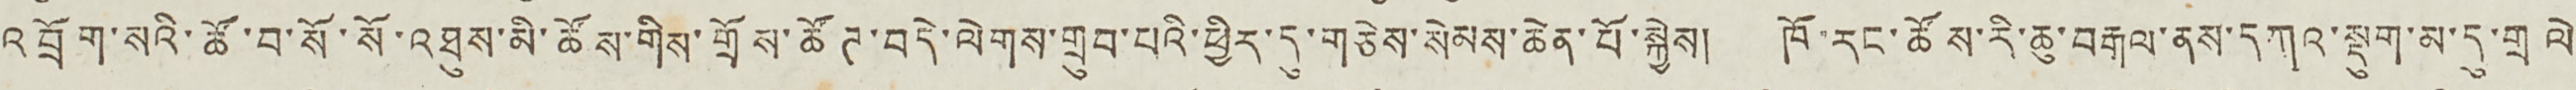འབྲོག་སའི་ཚོ་བ་སོ་སོ་འཐུས་མི་ཚོས་གིས་གྲོས་ཚོཊ་བདེ་ལེགས་གྲུབ་པའི་ཕྱིར་དུ་གཅེས་སེམས་ཆེན་པོ་སྐྱེས། ཁོ་རང་ཚོས་རི་ཆུ་བརྒལ་ནས་དཀའ་སྡུག་མ་དུ་གྲ ལེ
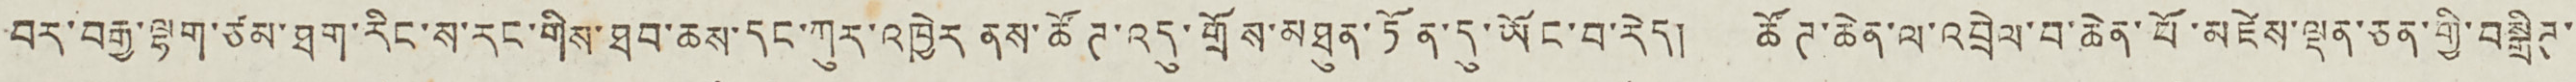བར་བརྒྱ་ལྷག་ཙམ་ཐག་རིང་ས་རང་གིས་ཐབ་ཆས་དང་ཀུར་འཁྱེར ནས་ཚོཊ་འདུ་གྲོས་མཐུན་ཏོན་དུ་ཡོང་བ་རེད། ཚོཊ་ཆེན་ལ་འབྲེལ་བ་ཆེན་པོ་མཛེས་ལྡན་ཅན་གྱི་བསྒྲིཊ་
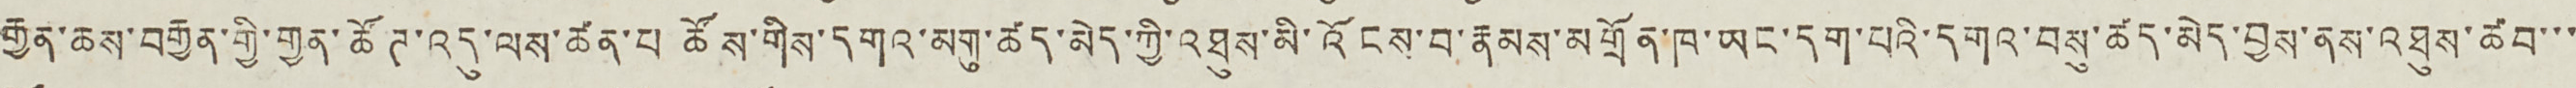རྒྱན་ཆས་བརྒྱན་གྱི་གྱན་ཚོཊ་འདུ་ལས་ཚན་པ ཚོས་གིས་དགའ་མགུ་ཚད་མེད་ཀྱི་འཐུས་མི་འོངས་བ་རྣམས་མགྲོན་ཁ་ཡང་དག་པའི་དགའ་བསུ་ཚད་མེད་བྱས་ནས་འཐུས་ཚབ་་་
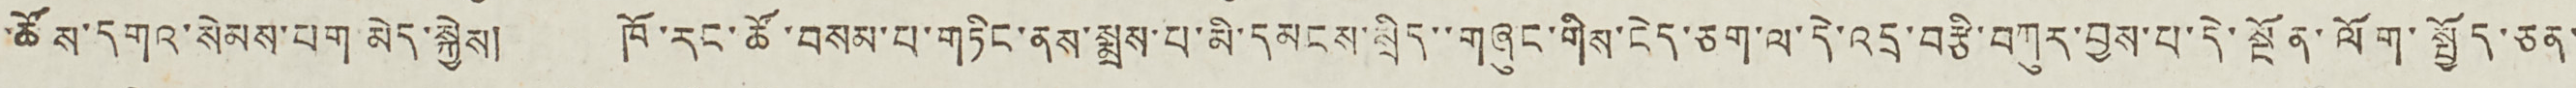ཚོས་དགའ་སེམས་པག མེད་སྐྱེས། ཁོ་རང་ཚོས་བསམ་པ་གཏིང་ནས་སྨྲས་པ་མི་དམངས་སྲིད་་གཞུང་གིས་ངེད་ཅག་ལ་དེ་འདྲ་བརྩི་བཀུར་བྱས་པ་དེ་སྔོན་ལོག་སྤྱོད་ཅན་
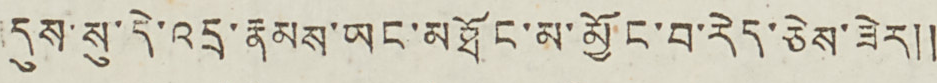དུས་སུ་དེ་འདྲ་རྣམས་ཡང་མཐོང་མ་མྱོང་བ་རེད་ཅེས་ཟེར༎
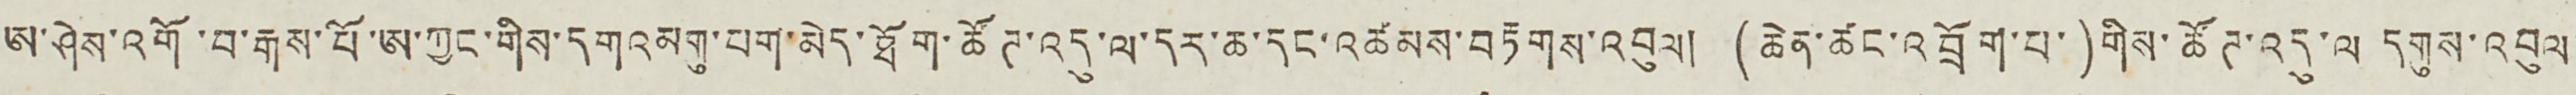ཨ་ཤེས་འགོ་བ་རྒས་པོ་ཨ་ཀྱང་གིས་དགའ མགུ་པག་མེད་ཐོག་ཚོཊ་འདུ་ལ་དར་ཆ་དང་འཚམས་བརྟགས་འབུལ། (ཆེན་ཚང་འབྲོག་པ་)གིས་ཚོཊ་འདུ་ལ དགུས་འབུལ་
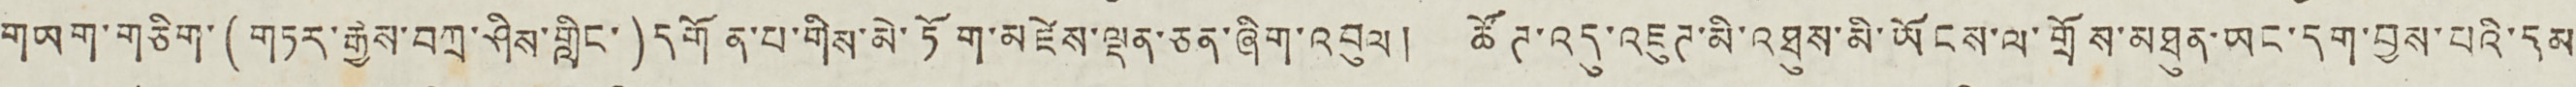གཡག་གཅིག་(གཏར་རྒྱས་བཀྲ་ཤིས་གླིང་)དགོན་པ་གིས་མེ་ཏོག་མཛེས་ལྡན་ཅན་ཞིག་འབུལ། ཚོཊ་འདུ་འཇུཊ་མི་འཐུས་མི་ཡོངས་ལ་གྲོས་མཐུན་ཡང་དག་བྱས་པའི་དམ
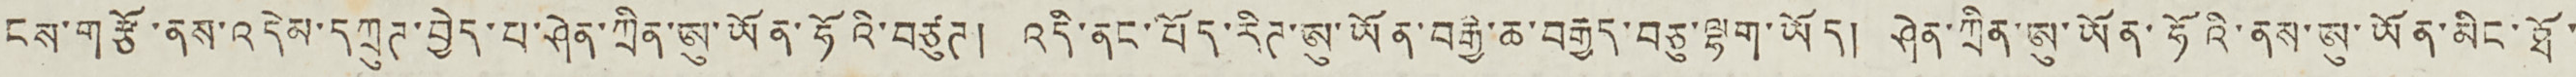ངས་གཙོ་ནས་འདེམ་དཀྲུཊ་བྱེད་པ་ཤེན་ཀྲིན་ཨུ་ཡོན་ཧོའི་བཙུཊ། འདི་ནང་བོད་རིཊ་ཨུ་ཡོན་བརྒྱ་ཆ་བརྒྱད་བཅུ་ལྷག་ཡོད། ཤེན་ཀྲིན་ཨུ་ཡོན་ཧོའི་ནས་ཨུ་ཡོན་མིང་ཐོ་
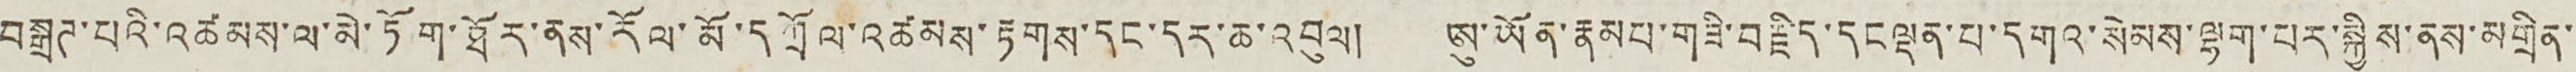བསྒྲཊ་པའི་འཚམས་ལ་མེ་ཏོག་ཐོར་ནས་རོལ་མོ་དཀྲོལ་འཚམས་རྟགས་དང་དར་ཆ་འབུལ། ཨུ་ཡོན་རྣམས་གཟི་བརྗིད་དངལྡན་པ་དགའ་སེམས་ལྷག་པར་སྐྱིས་ནས་མགྲིན་
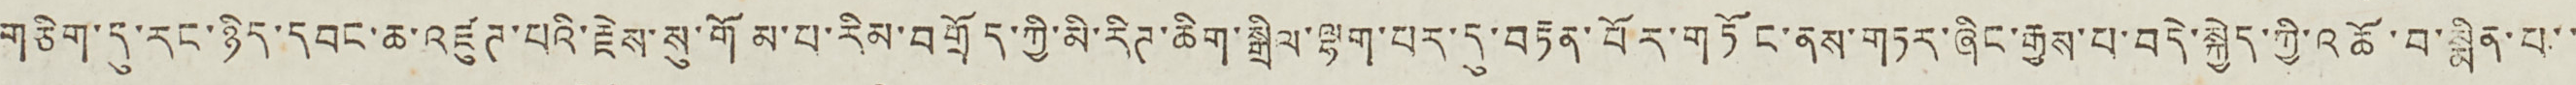གཅིག་དུ་རང་ཉིད་དབང་ཆ་འཛུཊ་པའི་རྗེས་སུ་གོམ་པ་རིམ་བགྲོད་ཀྱི་མི་རིཊ་ཆིག་སྒྲིལ་ལྷག་པར་དུ་བརྟན་པོར་གཏོང་ནས་གཏར་ཞིང་རྒྱས་པ་བདེ་སྐྱེད་ཀྱི་འཆོ་བ་སྨིན་པ་་
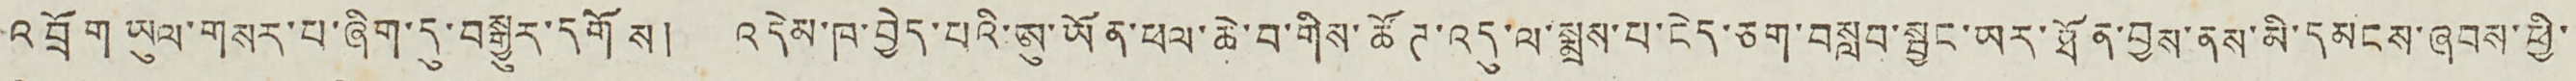འབྲོག ཡུལ་གསར་པ་ཞིག་དུ་བསྒྱུར་དགོས། འདེམ་ཁ་བྱེད་པའི་ཨུ་ཡོན་ཕལ་ཆེ་བ་གིས་ཚོཊ་འདུ་ལ་སྨྲས་པ་ངེད་ཅག་བསླབ་སྦྱང་ཡར་ཐོན་བྱས་ནས་མི་དམངས་ཞབས་ཕྱི་
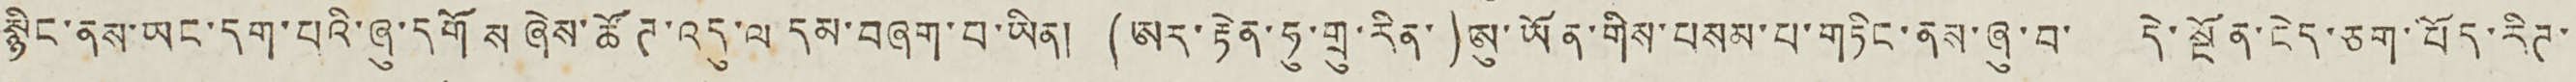སྙིང་ནས་ཡང་དག་པའི་ཞུ་དགོས་ཞེས་ཚོཊ་འདུ་ལ དམ་བཞག་པ་ཡིན། (ཨར་རྟེན་ཧུ་གྲུ་རིན་)ཨུ་ཡོན་གིས་བསམ་པ་གཏིང་ནས་ཞུ་བ་ དེ་སྔོན་ངེད་ཅག་བོད་རིཊ་
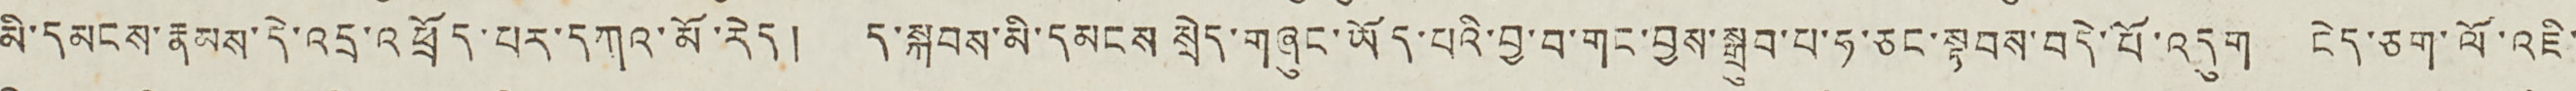མི་དམངས་རྣམས་དེ་འདྲ་འཕྲོད་པར་དཀའ་མོ་རེད། ད་སྐབས་མི་དམངས སྲིད་གཞུང་ཡོད་པའི་བྱ་བ་གང་བྱས་སྒྲུབ་པ་ཧ་ཅང་སྟབས་བདེ་པོ་འདུག ངེད་ཅག་ལོ་འཇི་
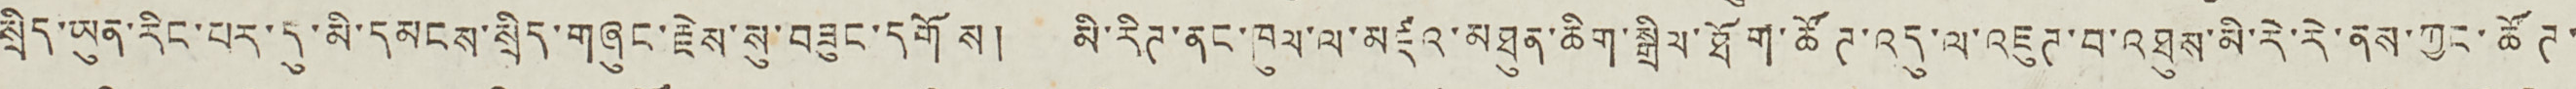སྲིད་ཡུན་རིང་པར་དུ་མི་དམངས་སྲིད་གཞུང་རྗེས་སུ་བཟུང་དགོས། མི་རིཊ་ནང་ཁུལ་ལ་མཛའ་མཐུན་ཆིག་སྒྲིལ་ཐོག་ཚོཊ་འདུ་ལ་འཇུཊ་བ་འཐུས་མི་རེ་རེ་ནས་ཀྱང་ཚོཊ་
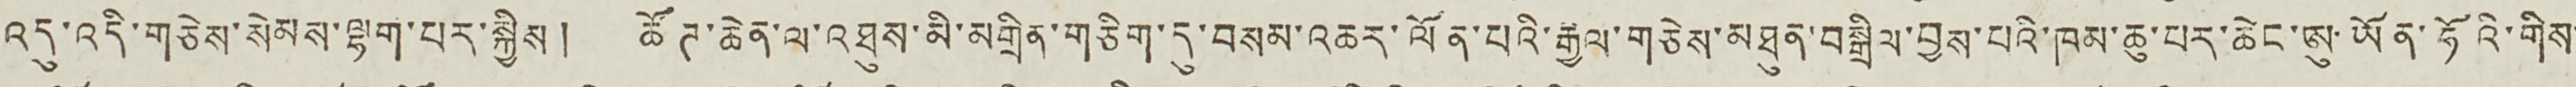འདུ་འདི་གཅེས་སེམས་ལྷག་པར་སྐྱིས། ཚོཊ་ཆེན་ལ་འཐུས་མི་མགྲིན་གཅིག་དུ་བསམ་འཆར་ལོན་པའི་རྒྱལ་གཅེས་མཐུན་བསྒྲིལ་བྱས་པའི་ཁམ་ཆུ་པར་ཆེང་ཨུ་ཡོན་ཧོའི་གིས་
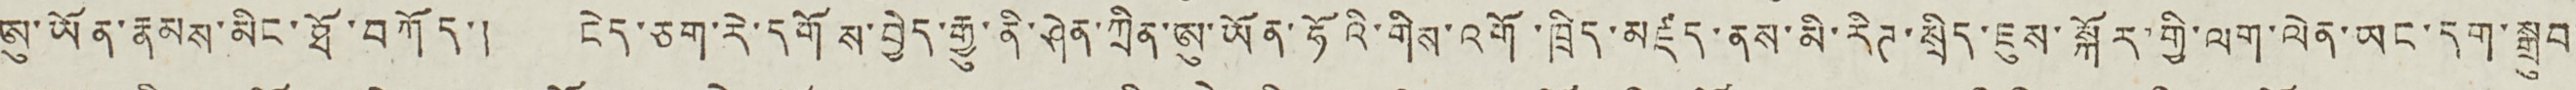ཨུ་ཡོན་རྣམས་མིང་ཐོ་བཀོད་། ངེད་ཅག་རེ་དགོས་བྱེད་རྒྱུ་ནི་ཤེན་ཀྲིན་ཨུ་ཡོན་ཧོའི་གིས་འགོ་ཁྲིད་མཛད་ནས་མི་རིཊ་སྲིད་ཇུས་སྐོར་གྱི་ལག་ལེན་ཡང་དག་སྒྲུབ་
